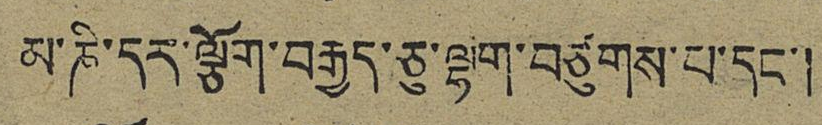མ་ཎི་དར་ལྕོག་བརྒྱད་ཅུ་ལྷག་བཙུགས་པ་དང་།
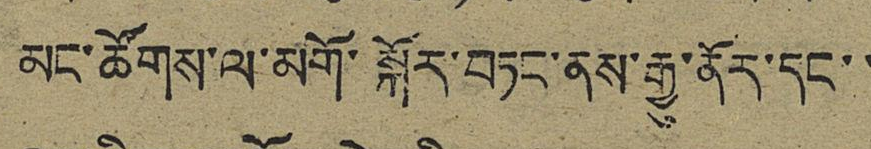མང་ཚོགས་ལ་མགོ་སྐོར་བཏང་ནས་རྒྱུ་ནོར་དང་་
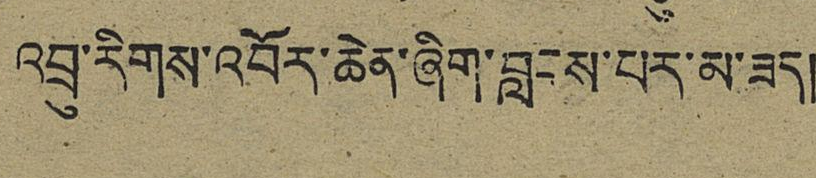འབྲུ་རིགས་འབོར་ཆེན་ཞིག་བླངས་པར་མ་ཟད།
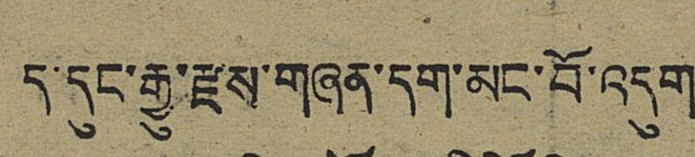ད་དུང་རྒྱུ་རྫས་གཞན་དག་མང་བོ་འདུག
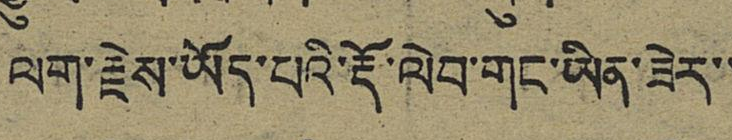ལག་རྗེས་ཡོད་པའི་རྡོ་ལེབ་གང་ཡིན་ཟེར་་
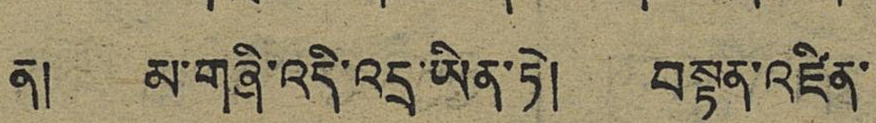ན། མ་གཞི་འདི་འདྲ་ཡིན་ཏེ། བསྟན་འཛིན་
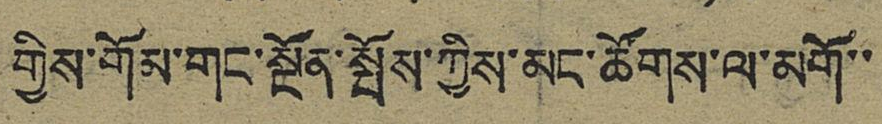གྱིས་གོམ་གང་སྔོན་སྤོས་ཀྱིས་མང་ཚོགས་ལ་མགོ་་
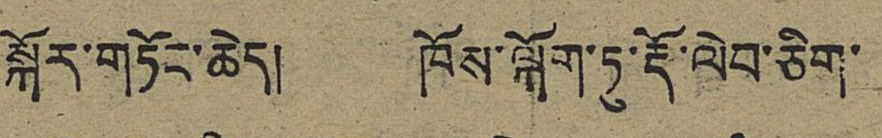སྐོར་གཏོང་ཆེད། ཁོས་ལྐོག་ཏུ་རྡོ་ལེབ་ཅིག་
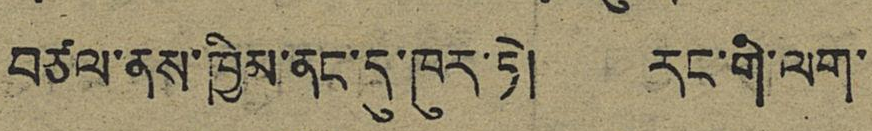བཙལ་ནས་ཁྱིམ་ནང་དུ་ཁུར་ཏེ། རང་གི་ལག་
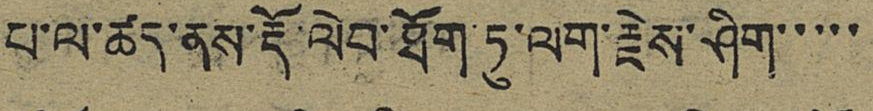པ་ལ་ཚད་ནས་རྡོ་ལེབ་ཐོག་ཏུ་ལག་རྗེས་ཤིག་་་་་
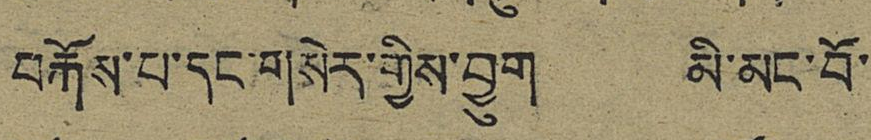བརྐོས་པ་དང་གསེར་གྱིས་བྱུག མི་མང་བོ་
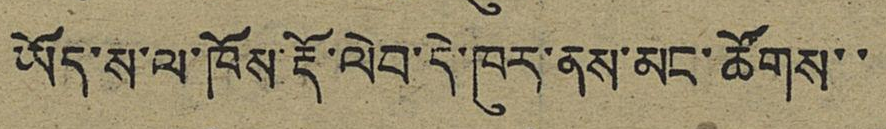ཡོད་ས་ལ་ཁོས་རྡོ་ལེབ་དེ་ཁུར་ནས་མང་ཚོགས་་
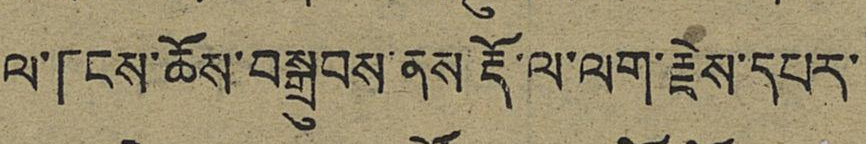ལ་「ངས་ཆོས་བསྒྲུབས་ནས རྡོ་ལ་ལག་རྗེས་དཔར་
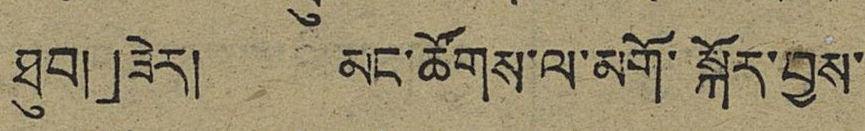ཐུབ།」ཟེར། མང་ཚོགས་ལ་མགོ་སྐོར་བྱས་
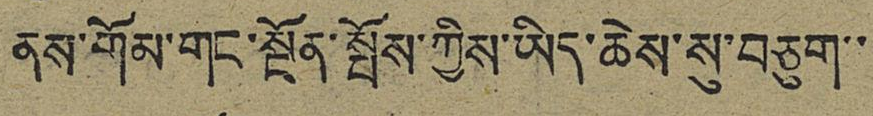ནས་གོམ་གང་སྔོན་སྤོས་ཀྱིས་ཡིད་ཆེས་སུ་བཅུག་་
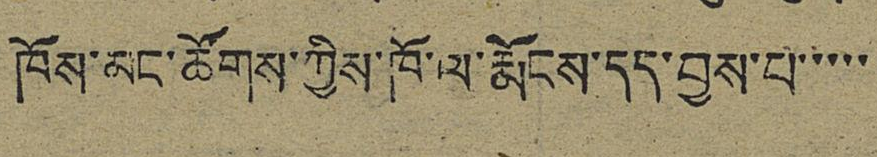ཁོས་མང་ཚོགས་ཀྱིས་ཁོ་ལ་རྨོངས་དད་བྱས་པ་་་་་
